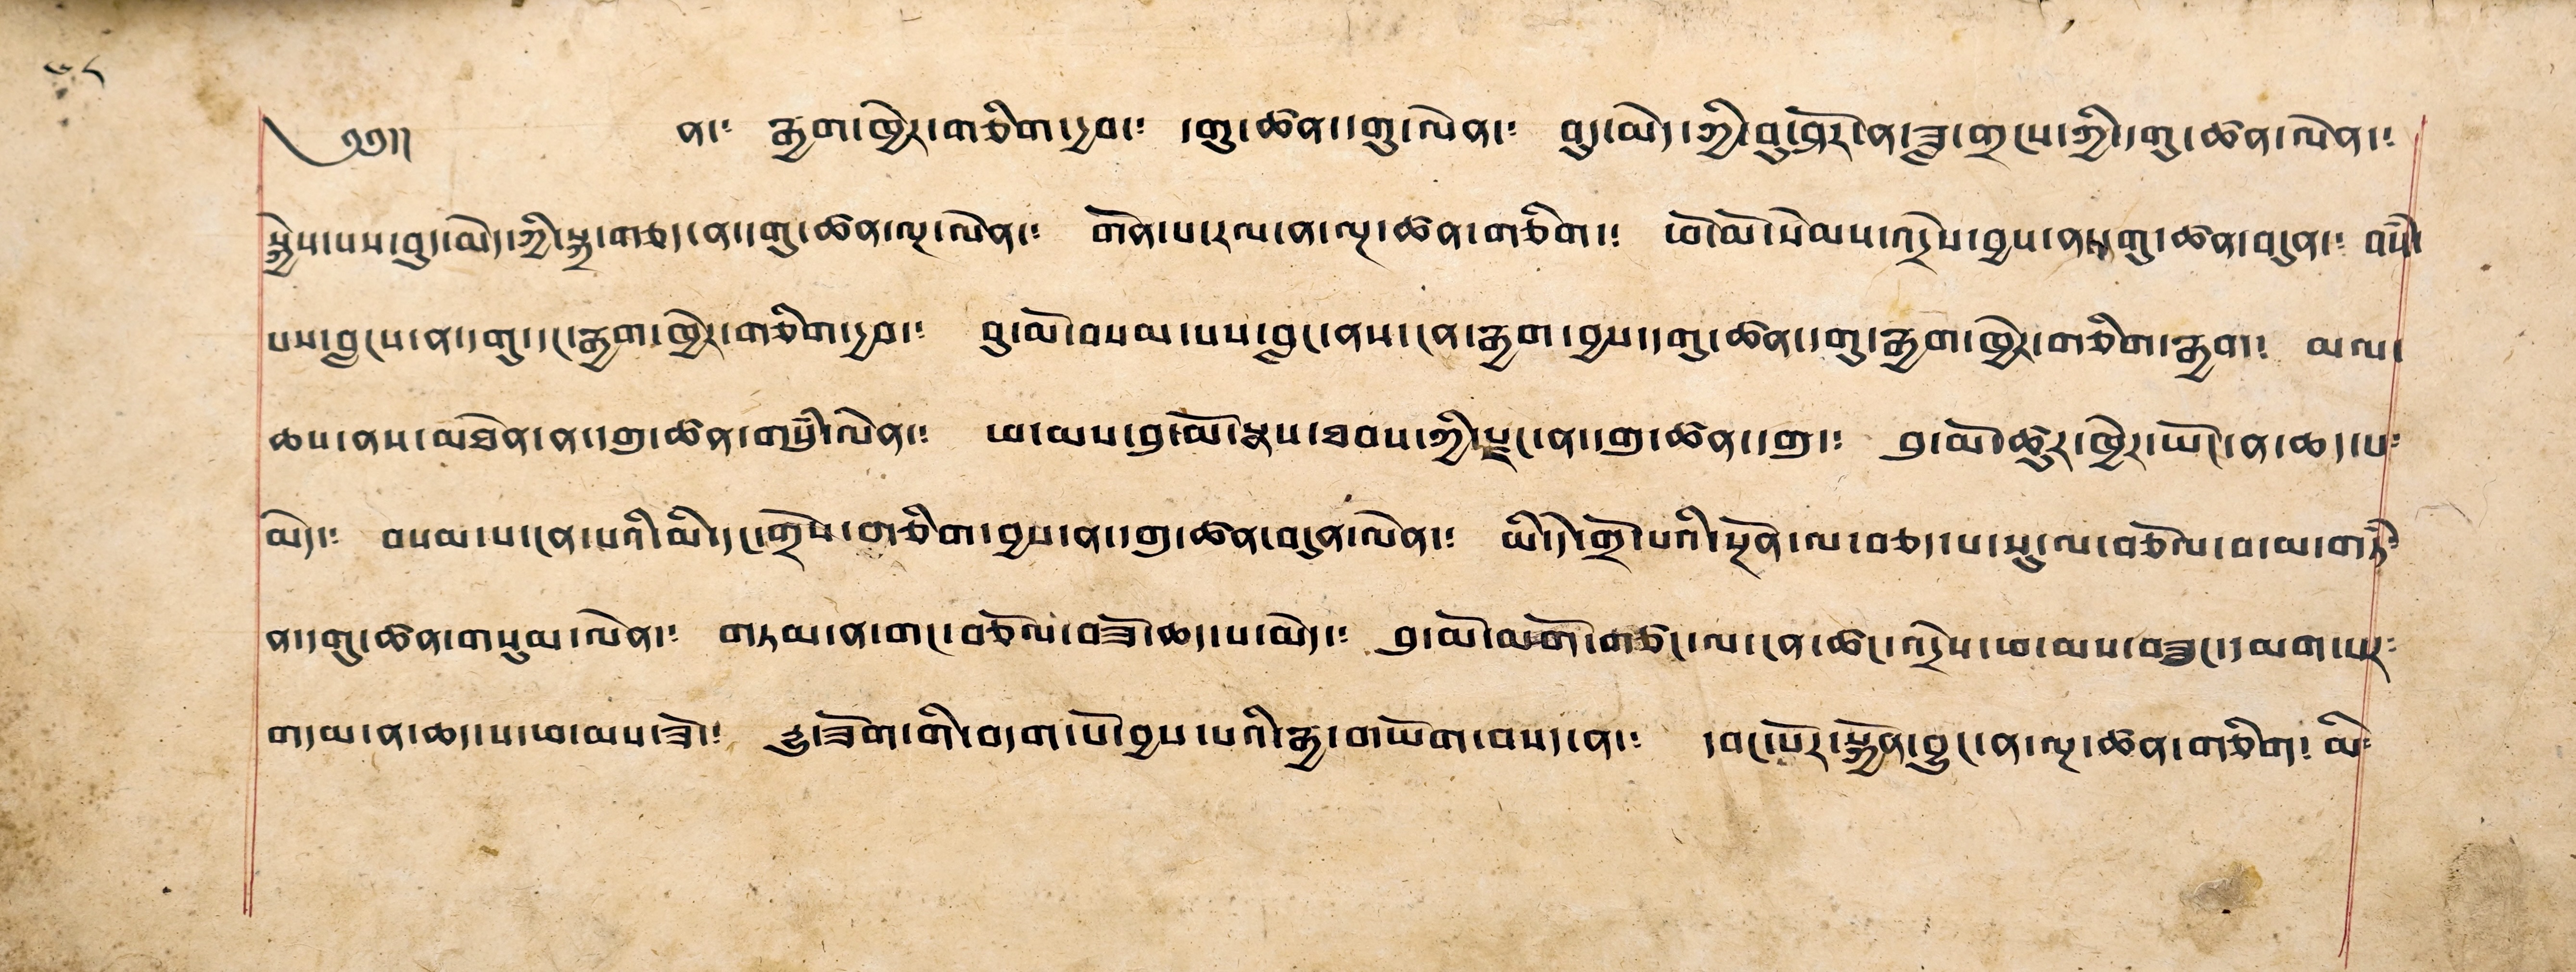༄༅།། ན་༴ རྒྱག་ཁྱེར་གཅིག་དྱབ་༴ དགུ་ཚན་དགུ་ལེན་༴ བུད་མེད་ཀྱི་བུ་ཤོར་ན་ཟླ་གྲངས་ཀྱི་དགུ་ཚན་ལེན་༴
སྐྱེས་པས་བུད་མེད་ཀྱི་སྐྲ་གཅད་ན་དགུ་ཚན་ལྔ་ལེན་༴ གོན་པ་རལ་ན་ལྔ་ཚན་གཅིག་༴ ཕོ་མོ་སེམས་འདྲེས་བྱས་ན་དགུ་ཚན་བདུན་༴ བསཾ་
པས་བླངས་ན་དགུ་དང་རྒྱག་ཁྱེར་གཅིག་དྱབ་༴ བུ་མོ་བསམ་པས་བླང་ནས་ངན་རྒྱག་བྱས་དགུ་ཚན་དགུ་རྒྱག་ཁྱེར་གཅིག་རྒྱག་༴ མལ་
ཆས་ནས་མཐོན་ན་དགུ་ཚན་གསུཾ་ལེན་༴ ཕ་མས་བུ་མོ་སྣས་ཐབས་ཀྱི་རྗང་ན་དགུ་ཚན་དགུ་༴ བུ་མོ་ཚུར་ཁྱེར་ཡོང་ན་ཆད་པ༴
མེད་༴ བསམ་པ་ངན་པའི་མི་དང་གྲོས་གཅིག་བྱས་ན་དགུ་ཚན་བདུན་ལེན་༴ མི་དེ་གྲོ་པའི་སྔོན་ལ་བཅད་པ་སུ་ལ་བཅོལ་བ་མ་གཏཾ་
ན་དགུ་ཚན་གསུམ་ལེན་༴ གཏམ་ན་གང་བཅོལ་བཟོ་ཆད་པ་མེད་༴ བུ་མོ་མགོ་གཙང་ལ་ངན་ཚང་འདྲེས་ཕ་མས་བཟུང་དམག་པར༴
གདམ་ན་ཆད་པ་ཕ་མས་ཟོ་༴ རྒྱུ་ཟོག་གི་བདག་པོ་བྱས་པའི་རྒྱ་གཡོག་བསད་ན་༴ དབང་པོར་སྐྱོན་བྱུང་ན་ལྔ་ཚན་གཅིག། མི༴
